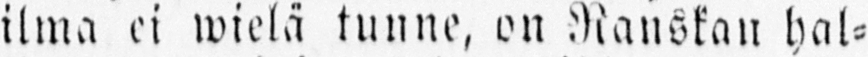ilma ei wielä tunne, on Ranskan hal-
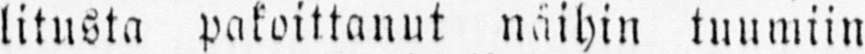litusta pakoittanut näihin tuumiin
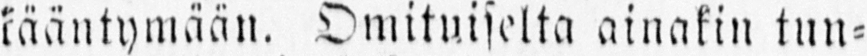kääntymään. Omituiselta ainakin tun-
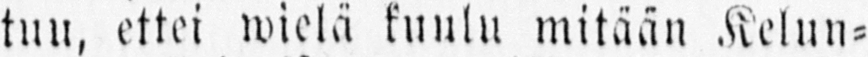tuu, ettei wielä kuulu mitään Kelun-
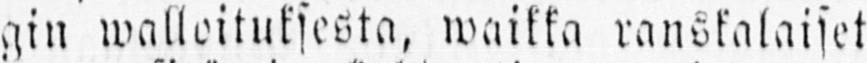gin walloituksesta, waikka ranskalaiset
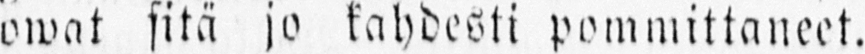owat sitä jo kahdesti pommittaneet.
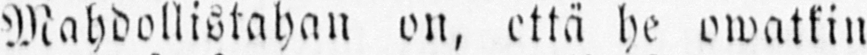Mahdollistahan on, että he owatkin
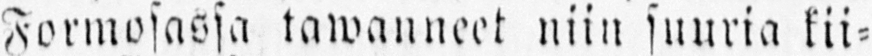Formosassa tawanneet niin suuria kii-
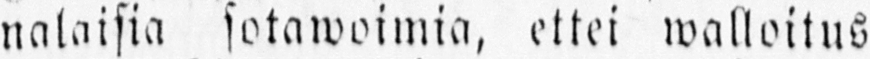nalaisia sotawoimia, ettei walloitus
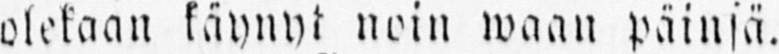olekaan käynyt noin waan päinsä.
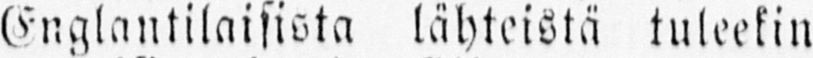Englantilaisista lähteistä tuleekin
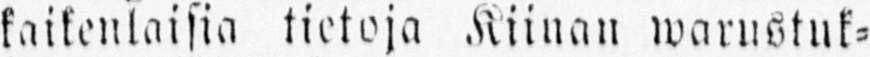kaikenlaisia tietoja Kiinan warustuk-
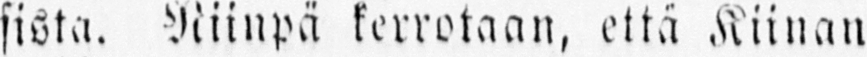sista. Niinpä kerrotaan, että Kiinan
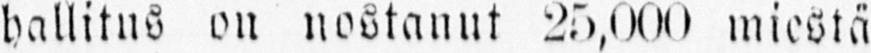hallitus on nostanut 25,000 miestä
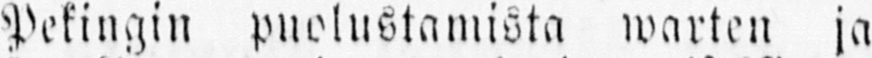Pekingin puolustamista warten ja
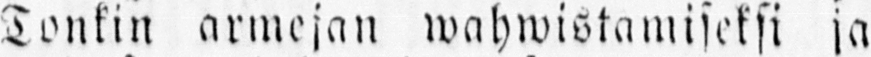Tonkin armejan wahwistamiseksi ja
